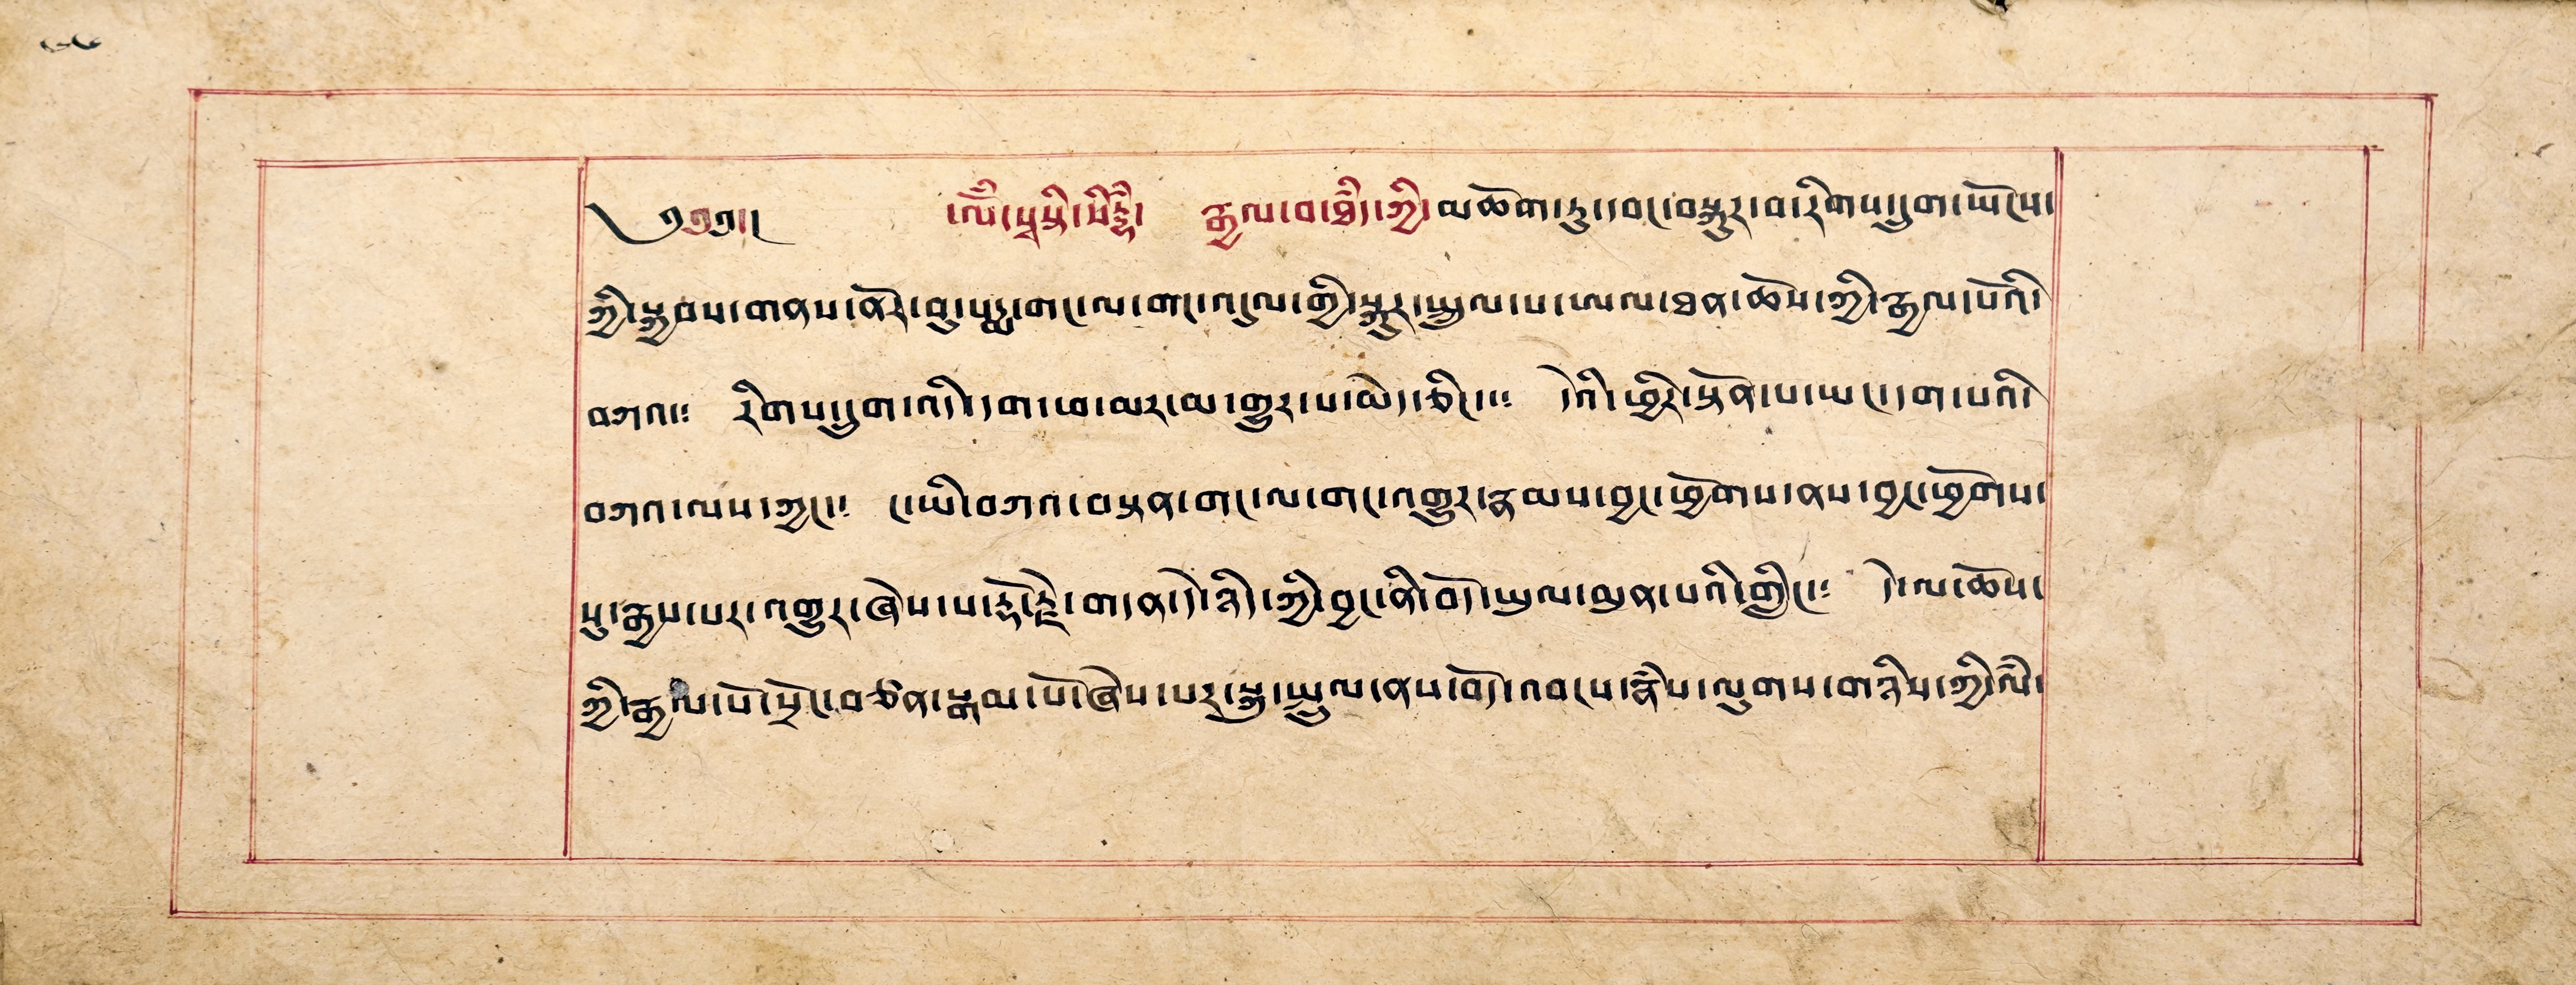༄༅༅།། ཨོཾ་སྭསྟི་སིདྷཾ། རྒྱལ་བ་ཐཾད་ཀྱི་མཆོག་ཏུ་དབང་བསྐུར་བ་རིགས་དྲུག་ཡོངས་
ཀྱི་སྐྱབས་གནས་ནོར་བུ་ཡཔདྨ་གང་ལ་གང་འདུལ་གྱི་སྐུར་སྤྲུལ་པ་ཨལ་ཐན་ཆོས་ཀྱི་རྒྱལ་པོའི་
བཀའ༴ རིགས་དྲུག་འདི་དག་ཕ་མར་མ་གྱུར་པ་མེད་ཅིང་་༴ དེའི་ཕྱིར་སྟོན་པ་ཡང་དག་པའི་
བཀའ་ལས་ཀྱང་༴ ང་ཡི་བཀའ་བསྟན་གང་ལ་གང་འགྱུར་རྣམས་བྱང་ཕྱོགས་ནས་བྱང་ཕྱོགས་
སུ་རྒྱས་པར་འགྱུར་ཞེས་པ་རྡོ་རྗེ་གདན་དེ་ཉིད་ཀྱི་བྱང་ནི་བོད་ཡུལ་མུན་པའི་གླིང་༴ དེ་ལ་ཆོས་
ཀྱི་རྒྱལ་པོ་སྲོང་བཙན་སྒམ་པོ་ཞེས་པར་སྐུ་སྤྲུལ་ནས་བོད་འབངས་རྣཾས་ལུགས་གཉིས་ཀྱི་ལཾ་
